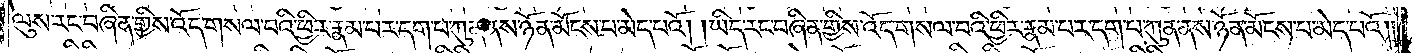ལུས་རང་བཞིན་གྱིས་འོད་གསལ་བའི་ཕྱིར་རྣམ་པར་དག་པ་ཀུན་ནས་ཉོན་མོངས་པ་མེད་པའོ། །ཡིད་རང་བཞིན་གྱིས་འོད་གསལ་བའི་ཕྱིར་རྣམ་པར་དག་པ་ཀུན་ནས་ཉོན་མོངས་པ་མེད་པའོ། །
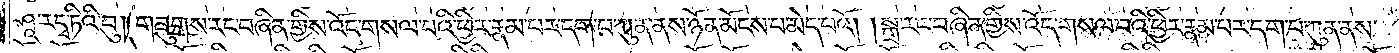ཤཱ་རདྭ་ཏིའི་བུ། གཟུགས་རང་བཞིན་གྱིས་འོད་གསལ་བའི་ཕྱིར་རྣམ་པར་དག་པ་ཀུན་ནས་ཉོན་མོངས་པ་མེད་པའོ། །སྒྲ་རང་བཞིན་གྱིས་འོད་གསལ་བའི་ཕྱིར་རྣམ་པར་དག་པ་ཀུན་ནས་
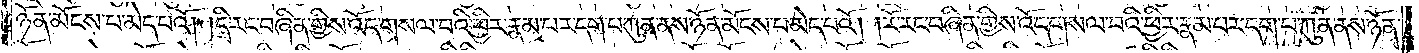ཉོན་མོངས་པ་མེད་པའོ། །དྲི་རང་བཞིན་གྱིས་འོད་གསལ་བའི་ཕྱིར་རྣམ་པར་དག་པ་ཀུན་ནས་ཉོན་མོངས་པ་མེད་པའོ། །རོ་རང་བཞིན་གྱིས་འོད་གསལ་བའི་ཕྱིར་རྣམ་པར་དག་པ་ཀུན་ནས་ཉོན་
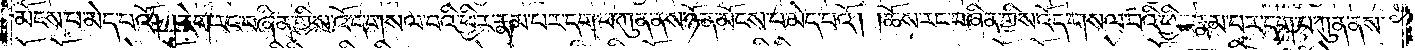མོངས་པ་མེད་པའོ། །རེག་རང་བཞིན་གྱིས་འོད་གསལ་བའི་ཕྱིར་རྣམ་པར་དག་པ་ཀུན་ནས་ཉོན་མོངས་པ་མེད་པའོ། །ཆོས་རང་བཞིན་གྱིས་འོད་གསལ་བའི་ཕྱིར་རྣམ་པར་དག་པ་ཀུན་ནས་
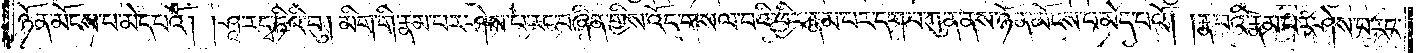ཉོན་མོངས་པ་མེད་པའོ། །ཤཱ་ར་དྭ་ཏིའི་བུ། མིག་གི་རྣམ་པར་ཤེས་པ་རང་བཞིན་གྱིས་འོད་གསལ་བའི་ཕྱིར་རྣམ་པར་དག་པ་ཀུན་ནས་ཉོན་མོངས་པ་མེད་པའོ། །རྣ་བའི་རྣམ་པར་ཤེས་པ་རང་
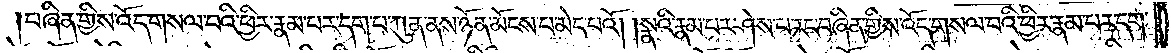བཞིན་གྱིས་འོད་གསལ་བའི་ཕྱིར་རྣམ་པར་དག་པ་ཀུན་ནས་ཉོན་མོངས་པ་མེད་པའོ། །སྣའི་རྣམ་པར་ཤེས་པ་རང་བཞིན་གྱིས་འོད་གསལ་བའི་ཕྱིར་རྣམ་པར་དག་
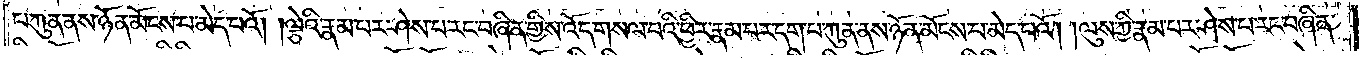པ་ཀུན་ནས་ཉོན་མོངས་པ་མེད་པའོ། །ལྕེའི་རྣམ་པར་ཤེས་པ་རང་བཞིན་གྱིས་འོད་གསལ་བའི་ཕྱིར་རྣམ་པར་དག་པ་ཀུན་ནས་ཉོན་མོངས་པ་མེད་པའོ། །ལུས་ཀྱི་རྣམ་པར་ཤེས་པ་རང་བཞིན་
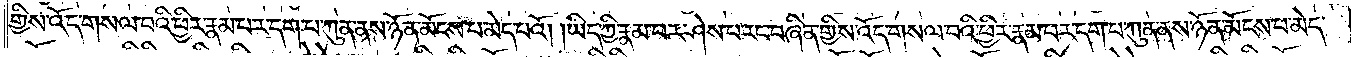གྱིས་འོད་གསལ་བའི་ཕྱིར་རྣམ་པར་དག་པ་ཀུན་ནས་ཉོན་མོངས་པ་མེད་པའོ། །ཡིད་ཀྱི་རྣམ་པར་ཤེས་པ་རང་བཞིན་གྱིས་འོད་གསལ་བའི་ཕྱིར་རྣམ་པར་དག་པ་ཀུན་ནས་ཉོན་མོངས་པ་མེད་
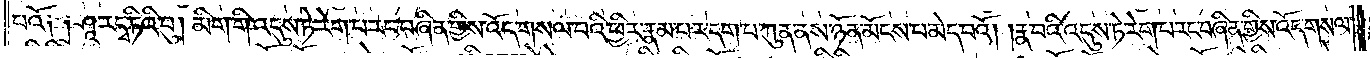པའོ༑ ༑ཤཱ་ར་དྭ་ཏིའི་བུ། མིག་གི་འདུས་ཏེ་རེག་པ་རང་བཞིན་གྱིས་འོད་གསལ་བའི་ཕྱིར་རྣམ་པར་དག་པ་ཀུན་ནས་ཉོན་མོངས་པ་མེད་པའོ། །རྣ་བའི་འདུས་ཏེ་རེག་པ་རང་བཞིན་གྱིས་འོད་གསལ་
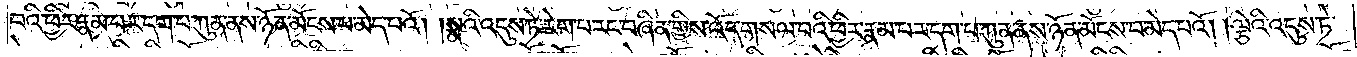བའི་ཕྱིར་རྣམ་པར་དག་པ་ཀུན་ནས་ཉོན་མོངས་པ་མེད་པའོ། །སྣའི་འདུས་ཏེ་རེག་པ་རང་བཞིན་གྱིས་འོད་གསལ་བའི་ཕྱིར་རྣམ་པར་དག་པ་ཀུན་ནས་ཉོན་མོངས་པ་མེད་པའོ། །ལྕེའི་འདུས་ཏེ་
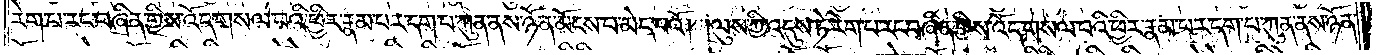རེག་པ་རང་བཞིན་གྱིས་འོད་གསལ་བའི་ཕྱིར་རྣམ་པར་དག་པ་ཀུན་ནས་ཉོན་མོངས་པ་མེད་པའོ། །ལུས་ཀྱི་འདུས་ཏེ་རེག་པ་རང་བཞིན་གྱིས་འོད་གསལ་བའི་ཕྱིར་རྣམ་པར་དག་པ་ཀུན་ནས་ཉོན་
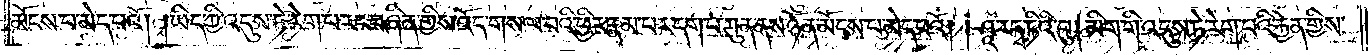མོངས་པ་མེད་པའོ། །ཡིད་ཀྱི་འདུས་ཏེ་རེག་པ་རང་བཞིན་གྱིས་འོད་གསལ་བའི་ཕྱིར་རྣམ་པར་དག་པ་ཀུན་ནས་ཉོན་མོངས་པ་མེད་པའོ། །ཤཱ་ར་དྭ་ཏིའི་བུ། མིག་གི་འདུས་ཏེ་རེག་པའི་རྐྱེན་གྱིས་
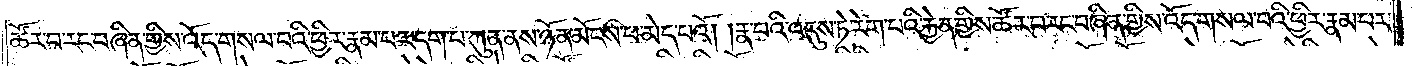ཚོར་བ་རང་བཞིན་གྱིས་འོད་གསལ་བའི་ཕྱིར་རྣམ་པར་དག་པ་ཀུན་ནས་ཉོན་མོངས་པ་མེད་པའོ། །རྣ་བའི་འདུས་ཏེ་རེག་པའི་རྐྱེན་གྱིས་ཚོར་བ་རང་བཞིན་གྱིས་འོད་གསལ་བའི་ཕྱིར་རྣམ་པར་
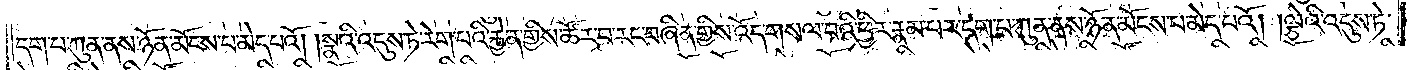དག་པ་ཀུན་ནས་ཉོན་མོངས་པ་མེད་པའོ། །སྣའི་འདུས་ཏེ་རེག་པའི་རྐྱེན་གྱིས་ཚོར་བ་རང་བཞིན་གྱིས་འོད་གསལ་བའི་ཕྱིར་རྣམ་པར་དག་པ་ཀུན་ནས་ཉོན་མོངས་པ་མེད་པའོ། །ལྕེའི་འདུས་ཏེ་
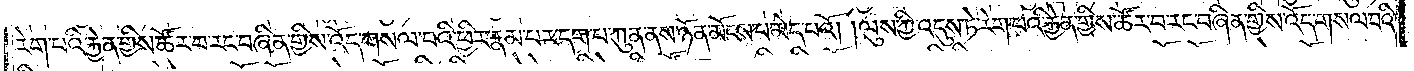རེག་པའི་རྐྱེན་གྱིས་ཚོར་བ་རང་བཞིན་གྱིས་འོད་གསལ་བའི་ཕྱིར་རྣམ་པར་དག་པ་ཀུན་ནས་ཉོན་མོངས་པ་མེད་པའོ། །ལུས་ཀྱི་འདུས་ཏེ་རེག་པའི་རྐྱེན་གྱིས་ཚོར་བ་རང་བཞིན་གྱིས་འོད་གསལ་བའི་
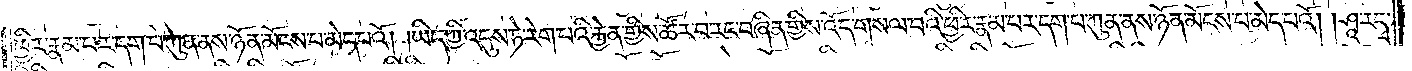ཕྱིར་རྣམ་པར་དག་པ་ཀུན་ནས་ཉོན་མོངས་པ་མེད་པའོ། །ཡིད་ཀྱི་འདུས་ཏེ་རེག་པའི་རྐྱེན་གྱིས་ཚོར་བ་རང་བཞིན་གྱིས་འོད་གསལ་བའི་ཕྱིར་རྣམ་པར་དག་པ་ཀུན་ནས་ཉོན་མོངས་པ་མེད་པའོ། །ཤཱ་ར་དྭ་
